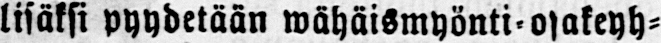lisäksi pyydetään wähäismyönti-osakeyh-
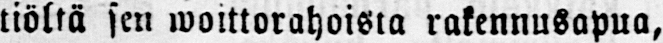tiöltä sen woittorahoista rakennusapua,
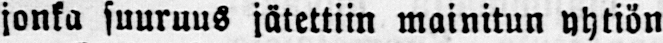jonka suuruus jätettiin mainitun yhtiön
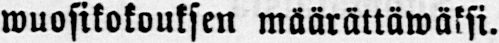wuosikokouksen määrättäwäksi.
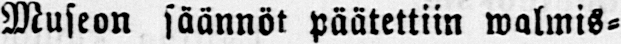Museon säännöt päätettiin walmis-
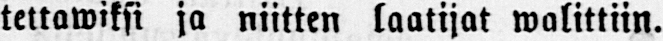tettawiksi ja niitten laatijat walittiin.
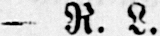- R. L.
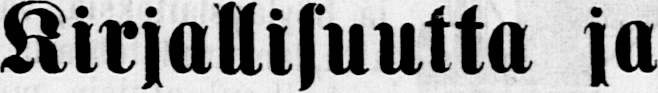Kirjallisuutta ja
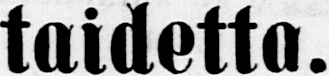taidetta.
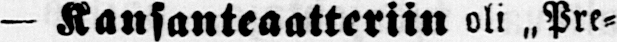— Kansanteaatteriin oli ˶Pre-
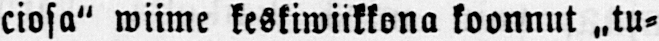ciosa" wiime keskiwiikkona koonnut ˶tu-
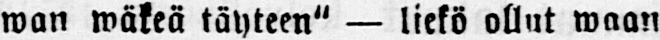wan wäkeä täyteen" — liekö ollut waan
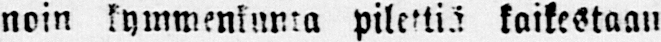noin kymmenkunta pilettiä kaikestaan
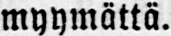myymättä.
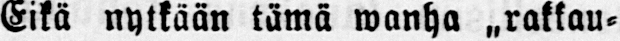Eikä nytkään tämä wanha ˶rakkau-
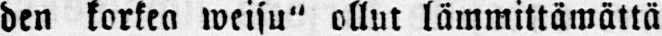den korkea weisu" ollut lämmittäwättä
